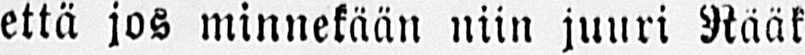että jos minnekään niin juuri Rääk
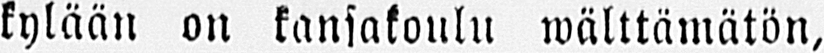kylään on kansakoulu wälttämätön,
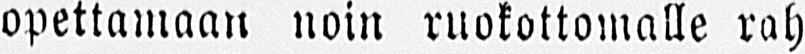opettamaan noin ruokottomalle rah-
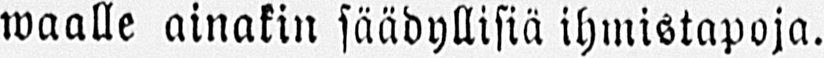waalle ainakin säädyllisiä ihmistapoja.
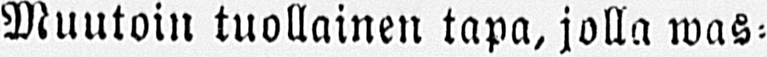Muutoin tuollainen tapa, jolla was-
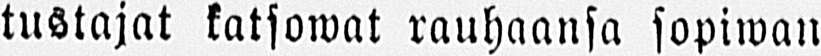tustajat katsowat rauhaansa sopiwan
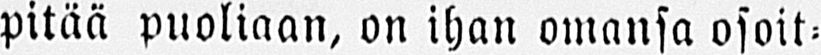pitää puoliaan, on ihan omansa osoit-
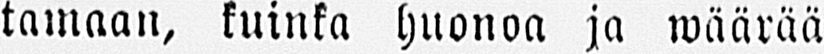tamaan, kuinka huonoa ja wäärää
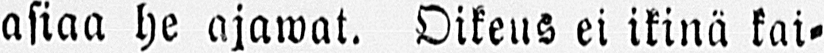asian he ajawat. Oikeus ei ikinä kai-
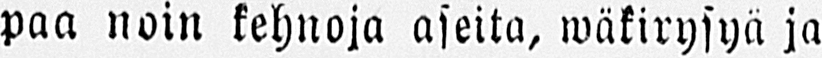paa noin kehnoja aseita, wäkirysyä ja
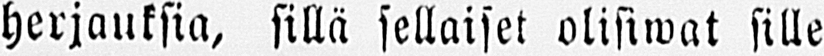herjauksia, sillä sellaiset olisiwat sille
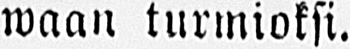waan turmioksi.
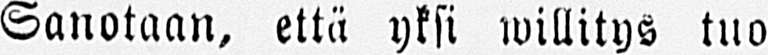Sanotaan, että yksi willitys tuo
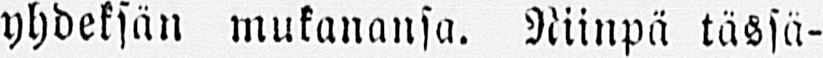yhdeksän mukanansa. Niinpä tässä-
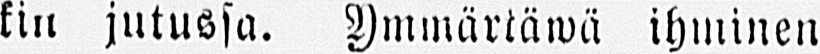kin jutussa. Ymmärtäwä ihminen
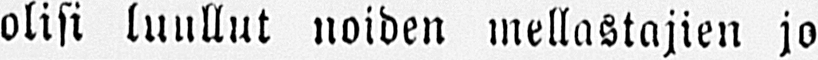olisi luullut noiden mellastajien jo
